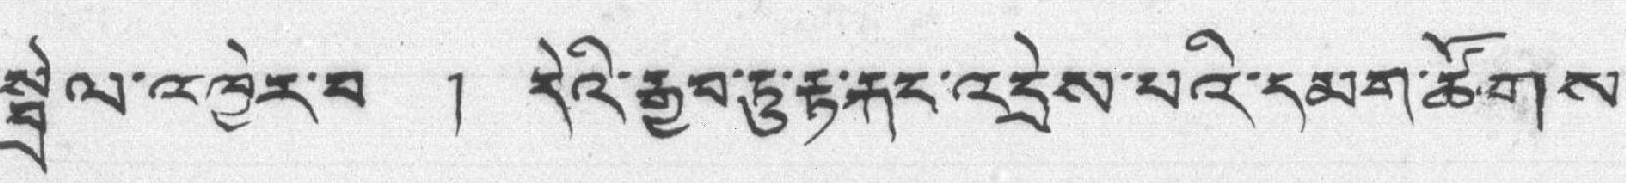སྦྲེལ་འཁྱེར་བ ། དེའི་རྒྱབ་ཏུ་རྟ་རྐང་འདྲེས་པའི་དམག་ཚོགས་
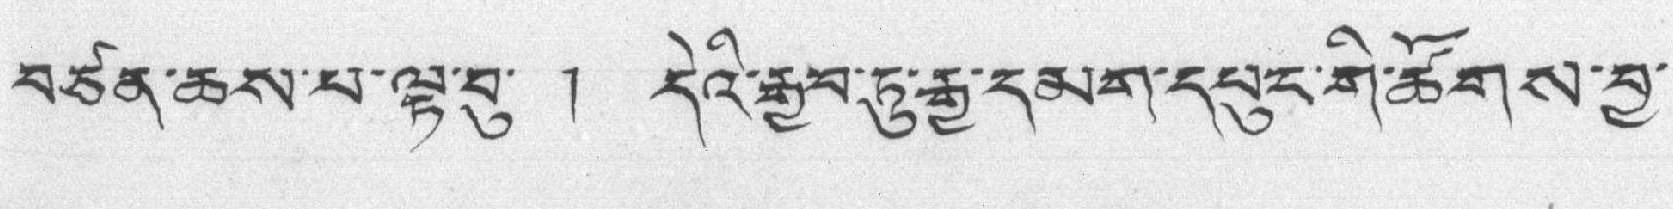བཙན་ཆོས་པ་ལྟ་བུ་ ། དེའི་རྒྱབ་ཏུ་རྒྱ་དམག་དཔུང་གི་ཚོགས་བྱ་
